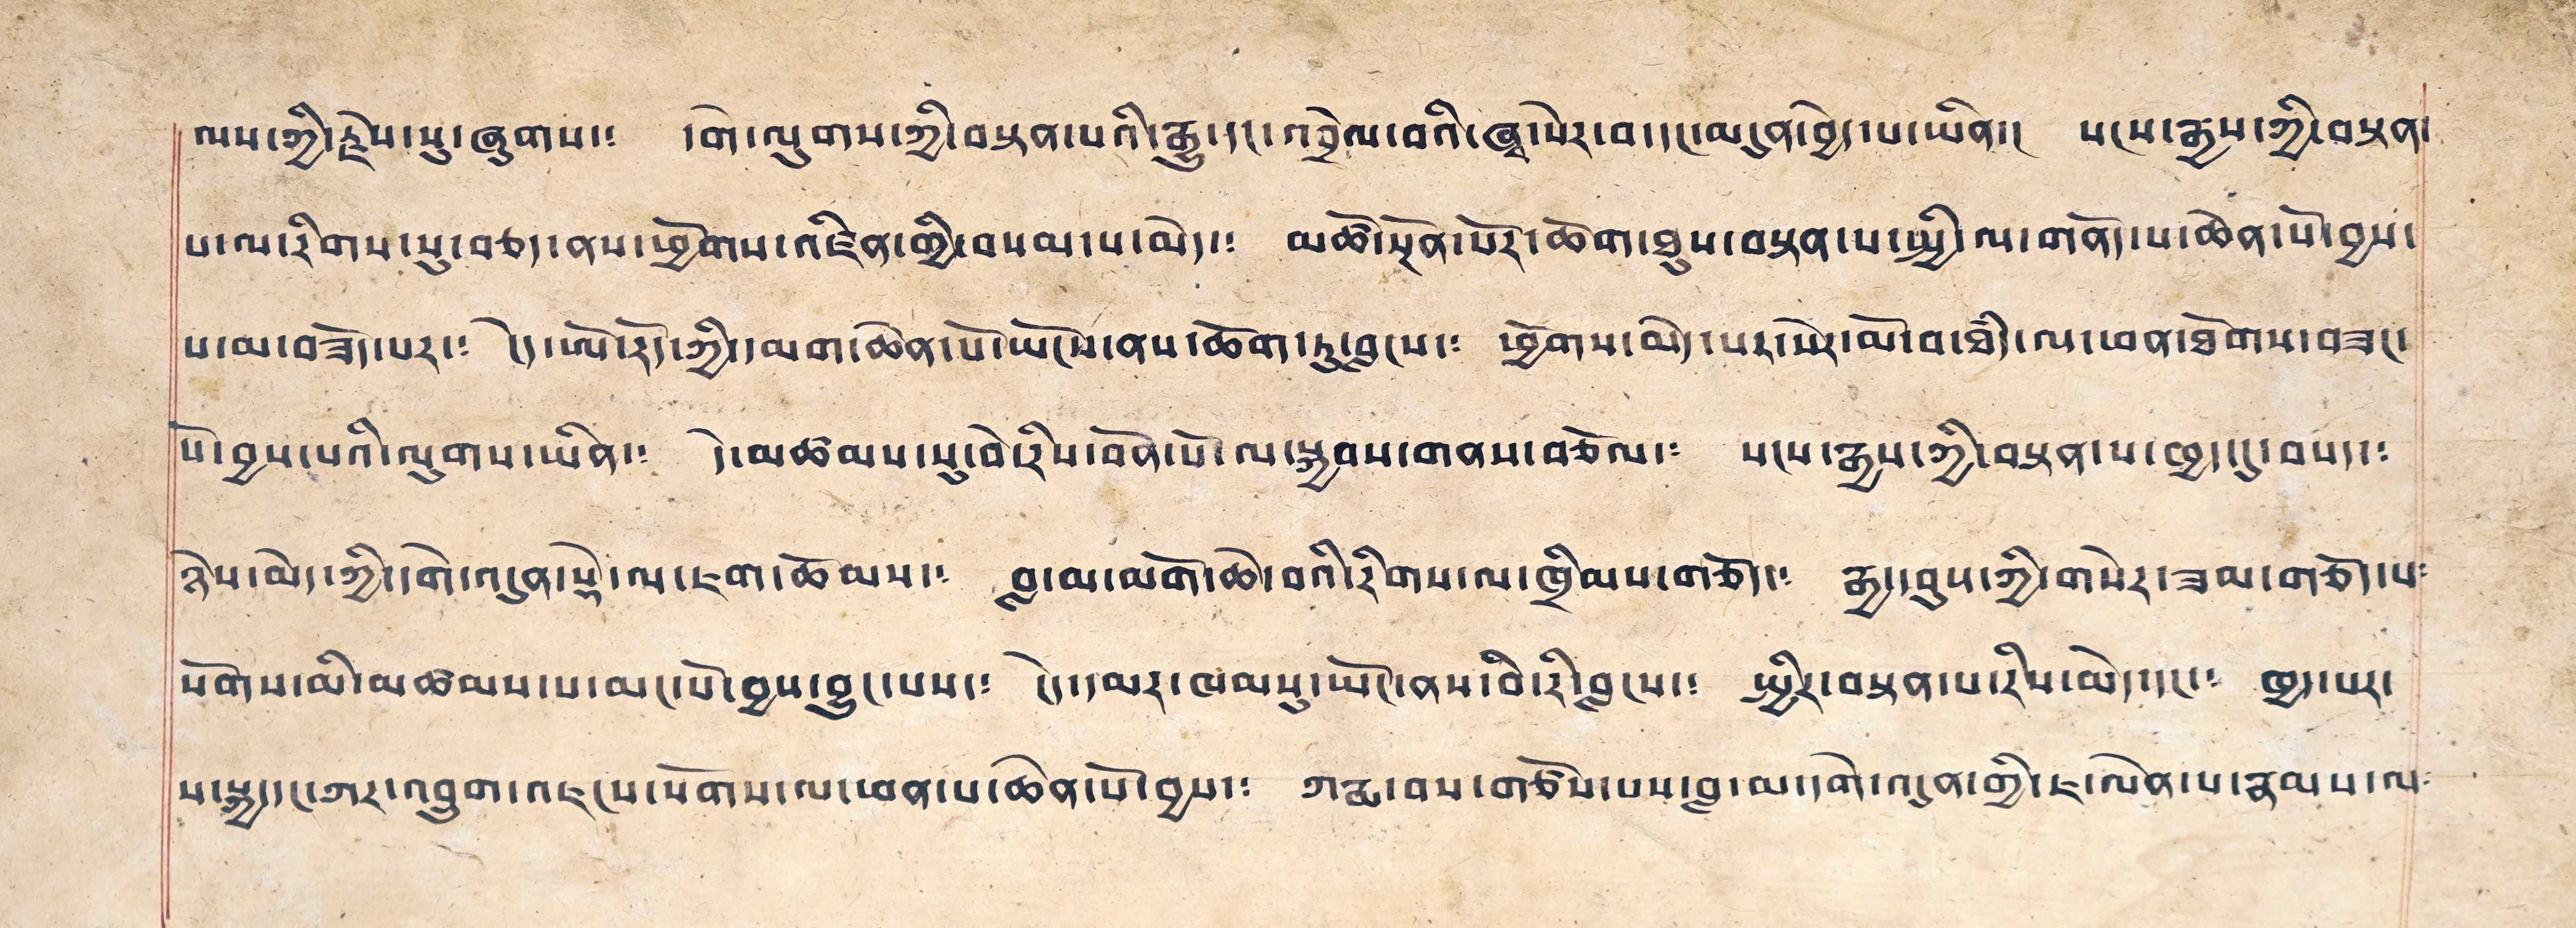ལས་ཀྱི་རྗེས་སུ་ཞུགས། དགེ་ལུགས་ཀྱི་བསྟན་པའི་རྒྱུ་དང་འབྲེལ་བའི་ཞྭ་སེར་བ་དང་མདུན་བྱེད་པ་ཡིན། སངས་རྒྱས་ཀྱི་བསྟན་
པ་ལ་རིགས་སུ་བཅད་ནས་ཕྱོགས་འཛིན་གྱི་བསམ་པ་མེད། མཚོ་སྔོན་པོར་ཆོག་ཐུས་བསྟན་པ་སྤྱི་ལ་གནོད་པ་ཆེན་པོ་བྱས་
པ་མ་བཟོད་པར། ངེད་ཨོ་རོད་ཀྱི་དམག་ཆེན་པོ་ཡོངས་ནས་ཆོག་ཏུ་བླངས། ཕྱོགས་མེད་པར་སེར་མོ་བ་ཐཾད་ལ་ཕན་ཐོགས་བཟང་
པོ་བྱས་པའི་ལུགས་ཡིན་། དེ་མཚམས་སུ་བེ་རིས་བོན་པོ་ལ་སྐྱབས་གནས་བཅོལ། སངས་རྒྱས་ཀྱི་བསྟན་པ་ཁྱད་དུ་བསད་།
ཉེས་མེད་ཀྱི་དགེ་འདུན་སྡེ་ལ་ཇག་ཆོམས་། བླ་མ་མགོ་ཆེ་བའི་རིགས་ལ་ཁྲིམས་གཅོད་། རྒྱ་བུས་ཀྱི་གསེར་ཟམ་གཅོད་པ་
སོགས་མི་མཚམས་པ་མང་པོ་བྱས་བྱུང་པས། ངེད་དམར་ཁམསུ་ཡོང་ནས་བི་རི་བླངས། སྤྱིར་བསྟན་པ་རིས་མེད་དང་། ཁྱད་པར་
ས་སྐྱ་དང་ཀར་འབྲུག་འཇངས་སོགས་ལ་ཕན་པ་ཆེན་པོ་བྱས་། ཀརྨ་བས་གཙོས་པས་བླ་མ་དགེ་འདུན་གྱི་ཇ་ལེན་པ་རྣམས་ལ་
